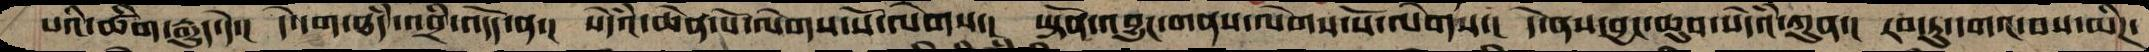པའི་ཚིག་རྒྱུད་དེ་།  དེ་དག་ཐདཾ་འབྲི་འདོད་ན་།  སེདཾའ་ཆེན་པོ་ལེགས་སོ་ལེགས་།  ཡྟོན་འབྱུང་གནས་ལེགས་སོ་ལེགས་།  དེ་ནས་བྱང་ཆུབ་སེདཾའ་ཀུན་།  རབ་ཏུ་དགའ་བས་དམིཌ་
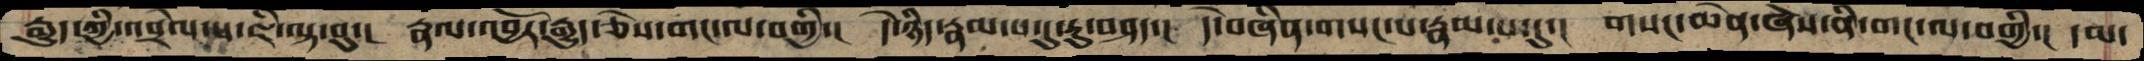རྒྱུད་ཀྱི་འབྲེལ་པ་ཇི་ལྟ་བུ་།  རྣལ་འབྱོར་རྒྱུད་ཅེས་གང་ལ་བགྱི་།  དེ་ཉིད་རྣམ་པ་དུ་རུ་བཤད་།  དེ་བཞིན་གསང་པ་རྣམ་པ་དུ་།  གསང་ཆེན་ཞེས་ནི་གང་ལ་བགྱི་།  དམ་
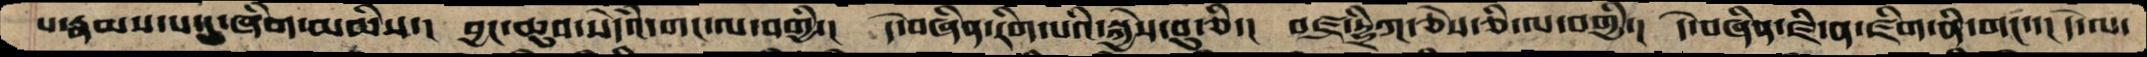པ་རྣམས་པ་དུ་ཞིག་མཆིས་།  བྱང་ཆུབ་སེདཾའ་གང་ལ་བགྱི་།  དེ་བཞིན་རིག་པའི་སྐྱེས་བུ་ཅི་།  བཛྲ་དྷྲིཀ་ཅེས་ཅི་ལ་བགྱི་།  དེ་བཞིན་ཛི་ན་ཛིག་ནི་གང་་།  དེ་ལ་
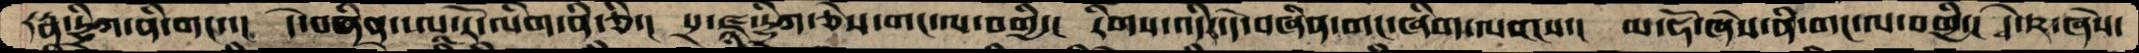རཏྣ་དྷྲིཀ་ནི་གང་་།  དེ་བཞིན་ལཱ་རོ་ལིག་ནི་ཅི་།  པྲ་ཛྙ་དྷྲིཀ་ཅེས་གང་ལ་བགྱི་།  རིགས་འདིར་དེ་བཞིན་གང་ཞིག་ལགས་།  མ་ཧོ་ཞེས་ནི་གང་ལ་བགྱི་།  དྭེ་ཥ་ཞེས་
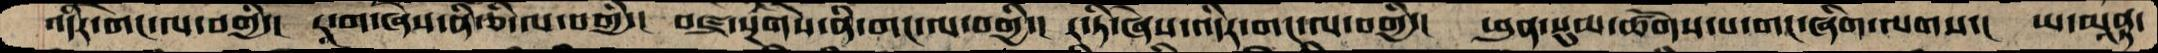འདིར་གང་ལ་བགྱི་།  རཱ་ག་ཞེས་ནི་ཅི་ལ་བགྱི་།  བཛྲ་སྔགས་ནི་གང་ལ་བགྱི་།  ར་ཏི་ཞེས་འདིར་གང་ལ་བགྱི་།  ཕུན་སུམ་ཚོགས་པ་གང་ཞིག་ལགས་།  ཡ་མཱནྟ་
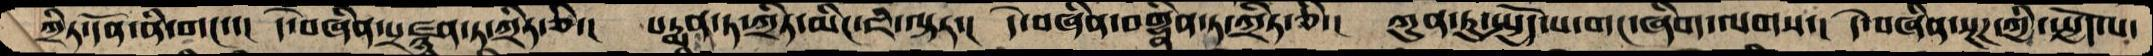ཀྲིཏ་དོན་ནི་གང་་།  དེ་བཞིན་པྲཛྙན་ཏ་ཀྲིཏ་ཅི་།  པདྨན་ཏ་ཀྲིཏ་མིང་ཇི་ལྟར་།  དེ་བཞིན་བགྷྣིན་ཏ་ཀྲིཏ་ཅི་།  ཀུན་ཏུ་སྤྱོད་པ་གང་ཞིག་ལགས་།  དེ་བཞིན་སྔཌ་ཀྱི་སྤྱོད་པ་
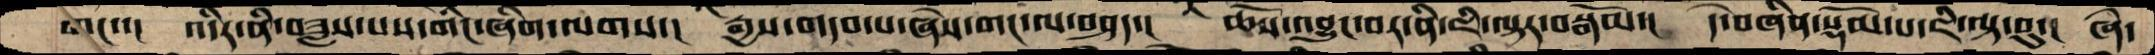གང་་།  འདིར་ནི་བཟླས་པས་གང་ཞིག་ལགས་།  རྒྱས་གདབ་པ་ཞེས་གང་ལ་བཤད་།  ཆོས་འབྱུང་བར་ནི་ཇི་ལྟར་བསྒོམ་།  དེ་བཞིན་སྡོམ་པ་ཇི་ལྟ་བུ་།  ཞེ་
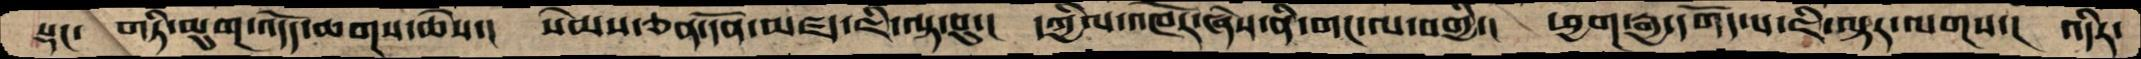སྡང་  གཏི་མུག་འདོད་ཆགས་ཆེས་།   སེམས་ཅན་དོན་མཛད་ཇི་ལྟ་བུ་།  དཀྱིལ་འཁོར་ཞེས་ནི་གང་ལ་བགྱི་།  ཕྱག་རྒྱ་དགོད་པ་ཇི་ལྟར་ལགས་།  འདིར་
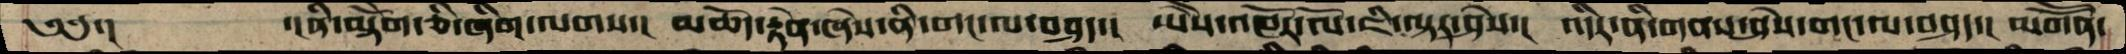༄༅་།     ་།ནི་མྟེགོ་ཅི་ཞིག་ལགས་།  མཆོད་རྟེན་ཞེས་ནི་གང་ལ་བཤད་།  ཡཻས་འཁོར་ལོ་ཇི་ལྟར་ཤེས་།  འདིར་ནི་གནས་ཤེས་གང་ལ་བཤད་།  མགཽན་
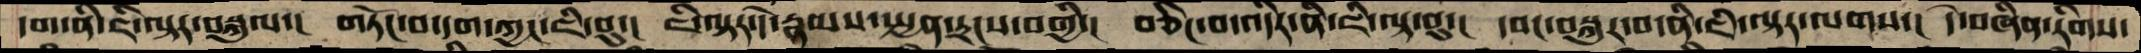དག་ནི་ཇི་ལྟར་བསྐུལ་།  གཏོང་བ་དག་ཀྱང་ཇི་བུ་།  ཇི་ལྟར་དེ་རྣམས་སྤྱན་དྲངས་བགྱི་།  བཅིང་བ་འདིར་ནི་ཇི་ལྟ་བུ་།  དབང་བསྐུར་བ་ནི་ཇི་ལྟར་ལགས་།  དེ་བཞིན་རིགས་
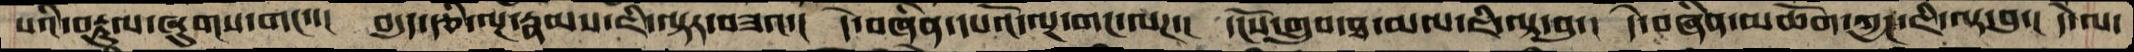པའི་བརྟུལ་ཞུགས་གང་་།  བདུད་རྩི་ལྔ་རྣམས་ཇི་ལྟར་བཟའ་།  དེ་བཞིན་དཔའོ་ལྔ་གང་ལཌ་།  དངོས་གྲུབ་ཐ་མལ་ཇི་ལྟ་བུ་།  དེ་བཞིན་མཆོག་ཀྱང་ཇི་ལྟ་བུ་།  དེ་ལ་
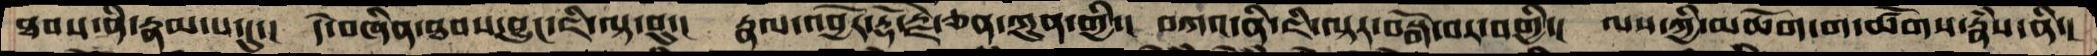ཐབས་ནི་རྣམ་པ་དུ་།  དེ་བཞིན་ཐབས་བྱུང་ཇི་ལྟ་བུ་།  རྣལ་འབྱོར་རྡོ་རྗེ་ཅན་ཀུན་གྱི་།  བཀའ་ནི་ཇི་ལྟར་བསྒོ་བར་བགྱི་།  ལས་ཀྱི་མཆོག་ག་ཚོགས་རྣཾས་ནི་།
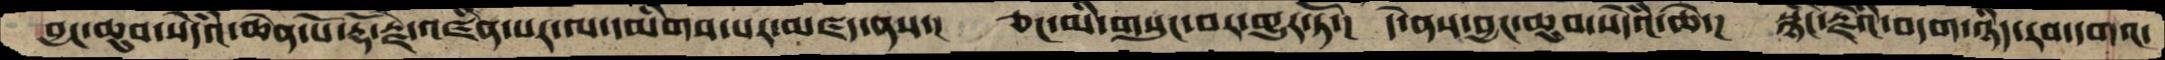བྱང་ཆུབ་སེདཾའ་ཆེན་པོ་རྡོ་རྗེ་འཛིན་པར་ལ་དམིགས་པར་མཛད་ནས་།  ཅང་མི་གསུང་བར་གྱུར་ཏོ་།  དེ་ནས་བྱང་ཆུབ་སེདཾའ་ཆེ་།  སྙིང་རྗེའི་བདག་ཉིད་རབ་དགའ་
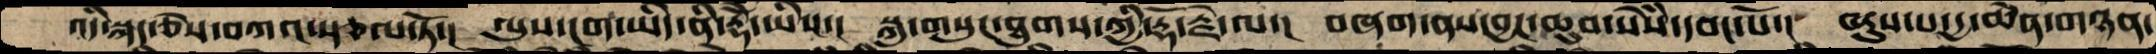འདི་སྐད་ཅེས་བཀའ་སྩལ་ཏོ་།  ལུས་ངག་ཡིད་ནི་རྡོེ་ཡིས་།  སྐུ་གསུང་ཐུགས་ཀྱི་རྡོ་རྗེ་ལ་།  བཞག་ནས་བྱང་ཆུབ་སེཾས་དབང་པོ་།  བཏུས་པ་དྱ་ཆེན་གཉན་
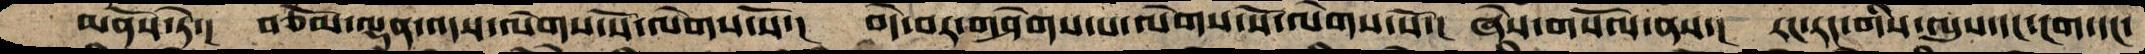མནོས་ཏེ་།  བཅོམ་ལྡན་འདས་ལེགས་སོ་ལེགས་སོ་།  བདེ་བར་གཤེགས་པ་ལེགས་སོ་ལེགས་སོ་།  ཞེས་གསོལ་ནས་།  རང་རང་གིས་ལུས་དང་ངག་དང་
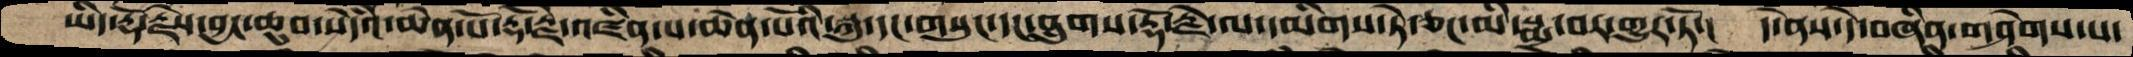ཡིད་རྡོ་རྗེས་བྱང་ཆུབ་སེདཾའ་ཆེན་པོ་རྡོ་རྗེ་འཛིན་པ་ཆེན་པོའི་སྐུ་དང་གསུང་དང་ཐུགས་རྡོ་རྗེ་ལ་དམིགས་ཏེ་ཅང་མི་སྨྲ་བར་གྱུར་ཏོ་།  དེ་ནས་དེ་བཞིན་གཤེགས་པ་
